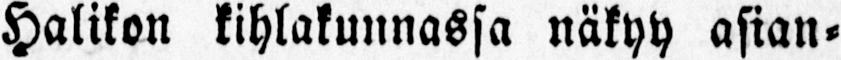Halikon kihlakunnassa näkyy asian-
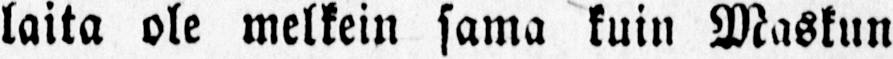laita ole melkein sama kuin Maskun
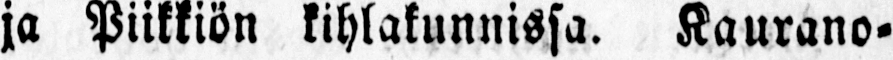ja Piikkiön kihlakunnissa. Kaurano-
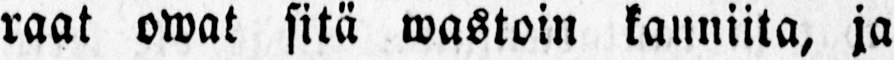raat owat sitä wastoin kauniita, ja
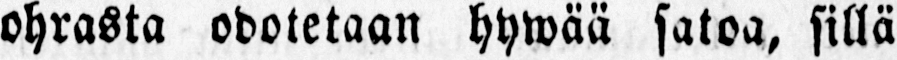ohrasta odotetaan hywää satoa, sillä
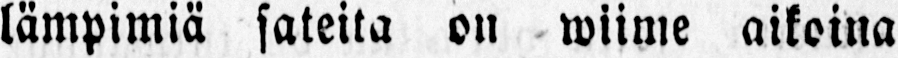lämpimiä sateita on wiime aikoina
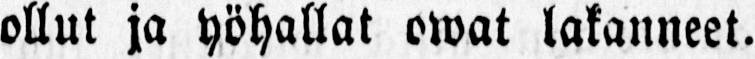ollut ja yöhallat owat lakanneet.
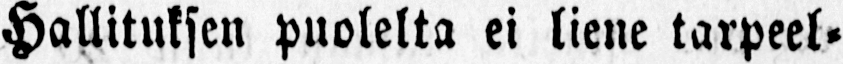Hallituksen puolelta ei liene tarpeel-
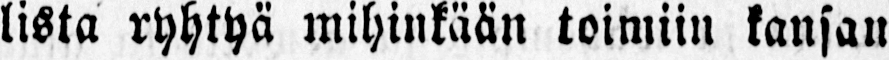lista ryhtyä mihinkään toimiin kansan
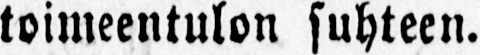toimeentulon suhteen.
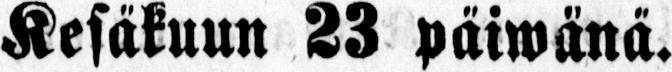Kesäkuun 23 päiwänä.
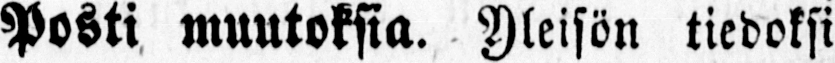Posti muutoksia. Yleisön tiedoksi
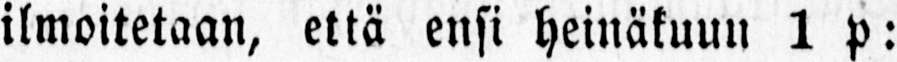ilmoitetaan, että ensi heinäkuun 1 p:
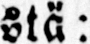stä:
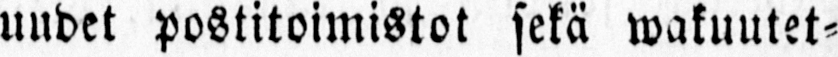uudet postitoimistot sekä wakuutet-
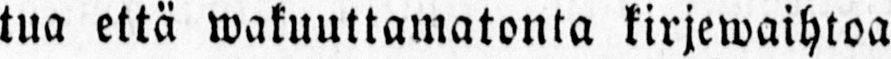tua että wakuuttamatonta kirjewaihtoa
